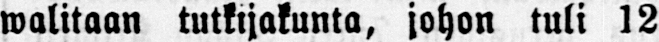walitaan tutkijakunta, johon tuli 12
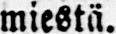miestä.
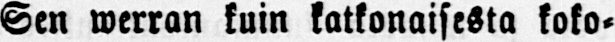Sen werran kuin katkonaisesta koko-
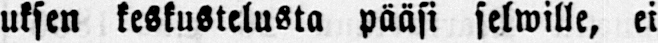uksen keskustelusta pääsi selwille, ei
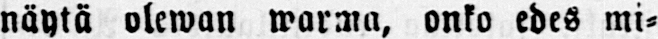näytä olewan warma, onko edes mi-
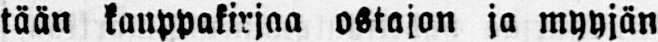tään kauppakirjaa ostajan ja myyjän
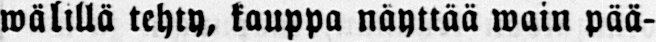wälillä tehty, kauppa näyttää wain pää-
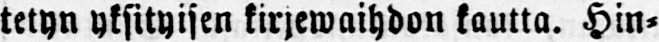tetyn yksityisen kirjewaihdon kautta. Hin-
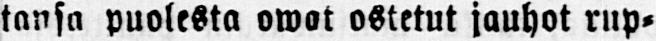tansa puolesta owat ostetut jauhot rup-
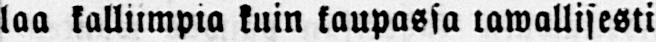laa kalliimpia kuin kaupassa tawallisesti
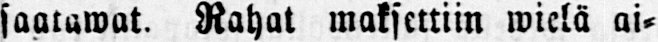saatawat. Rahat maksettiin wielä ai-
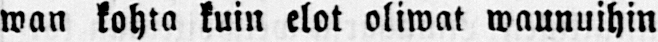wan kohta kuin elot oliwat waunuihin
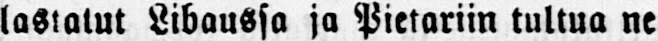lastatut Libaussa ja Pietariin tultua ne
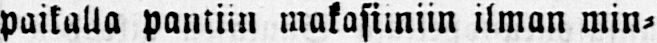paikalla pantiin makasiiniin ilman min-
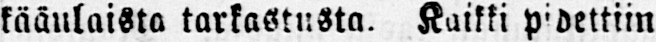käänlaista tarkastusta. Kaikki pidettiin
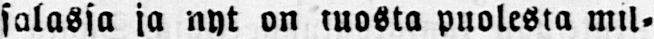salassa ja nyt on tuosta puolesta mil-
